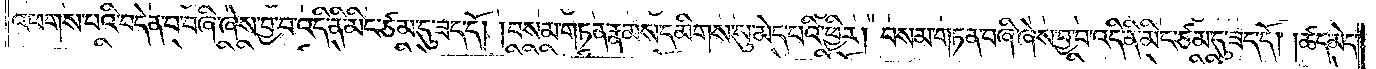འཕགས་པའི་བདེན་པ་བཞི་ཞེས་བྱ་བ་འདི་ནི་མིང་ཙམ་དུ་ཟད་དོ། །བསམ་གཏན་རྣམས་དམིགས་སུ་མེད་པའི་ཕྱིར། བསམ་གཏན་བཞི་ཞེས་བྱ་བ་འདི་ནི་མིང་ཙམ་དུ་ཟད་དོ། །ཚད་མེད་
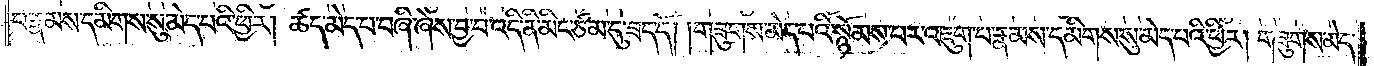པ་རྣམས་དམིགས་སུ་མེད་པའི་ཕྱིར། ཚད་མེད་པ་བཞི་ཞེས་བྱ་བ་འདི་ནི་མིང་ཙམ་དུ་ཟད་དོ། །གཟུགས་མེད་པའི་སྙོམས་པར་འཇུག་པ་རྣམས་དམིགས་སུ་མེད་པའི་ཕྱིར། གཟུགས་མེད་
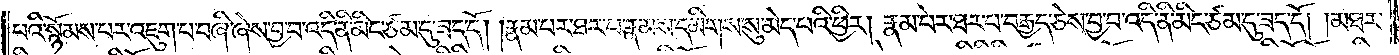པའི་སྙོམས་པར་འཇུག་པ་བཞི་ཞེས་བྱ་བ་འདི་ནི་མིང་ཙམ་དུ་ཟད་དོ། །རྣམ་པར་ཐར་པ་རྣམས་དམིགས་སུ་མེད་པའི་ཕྱིར། རྣམ་པར་ཐར་པ་བརྒྱད་ཅེས་བྱ་བ་འདི་ནི་མིང་ཙམ་དུ་ཟད་དོ། །མཐར་
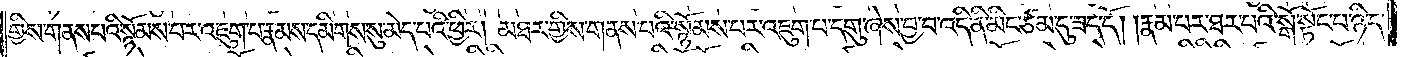གྱིས་གནས་པའི་སྙོམས་པར་འཇུག་པ་རྣམས་དམིགས་སུ་མེད་པའི་ཕྱིར། མཐར་གྱིས་གནས་པའི་སྙོམས་པར་འཇུག་པ་དགུ་ཞེས་བྱ་བ་འདི་ནི་མིང་ཙམ་དུ་ཟད་དོ། །རྣམ་པར་ཐར་པའི་སྒོ་སྟོང་པ་ཉིད་
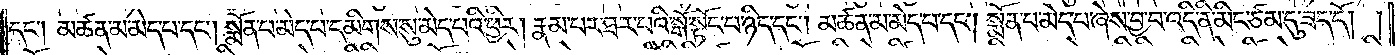དང༌། མཚན་མ་མེད་པ་དང༌། སྨོན་པ་མེད་པ་དམིགས་སུ་མེད་པའི་ཕྱིར། རྣམ་པར་ཐར་པའི་སྒོ་སྟོང་པ་ཉིད་དང༌། མཚན་མ་མེད་པ་དང༌། སྨོན་པ་མེད་པ་ཞེས་བྱ་བ་འདི་ནི་མིང་ཙམ་དུ་ཟད་དོ། །
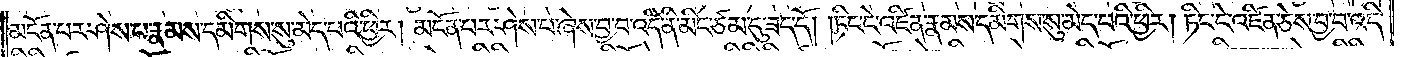མངོན་པར་ཤེས་པ་རྣམས་དམིགས་སུ་མེད་པའི་ཕྱིར། མངོན་པར་ཤེས་པ་ཞེས་བྱ་པ་འདི་ནི་མིང་ཙམ་དུ་ཟད་དོ། །ཏིང་ངེ་འཛིན་རྣམས་དམིགས་སུ་མེད་པའི་ཕྱིར། ཏིང་ངེ་འཛིན་ཅེས་བྱ་བ་འདི་
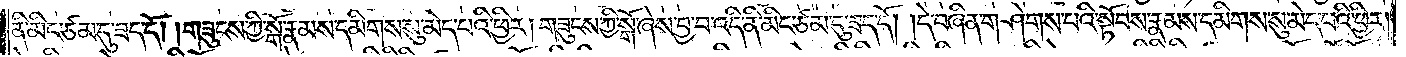ནི་མིང་ཙམ་དུ་ཟད་དོ། །གཟུངས་ཀྱི་སྒོ་རྣམས་དམིགས་སུ་མེད་པའི་ཕྱིར། གཟུངས་ཀྱི་སྒོ་ཞེས་བྱ་བ་འདི་ནི་མིང་ཙམ་དུ་ཟད་དོ། །དེ་བཞིན་གཤེགས་པའི་སྟོབས་རྣམས་དམིགས་སུ་མེད་པའི་ཕྱིར།
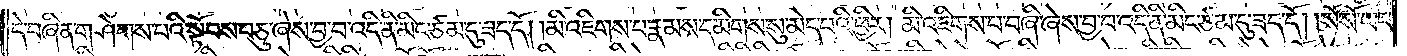དེ་བཞིན་གཤེགས་པའི་སྟོབས་བཅུ་ཞེས་བྱ་བ་འདི་ནི་མིང་ཙམ་དུ་ཟད་དོ། །མི་འཇིགས་པ་རྣམས་དམིགས་སུ་མེད་པའི་ཕྱིར། མི་འཇིགས་པ་བཞི་ཞེས་བྱ་བ་འདི་ནི་མིང་ཙམ་དུ་ཟད་དོ། །སོ་སོ་ཡང་
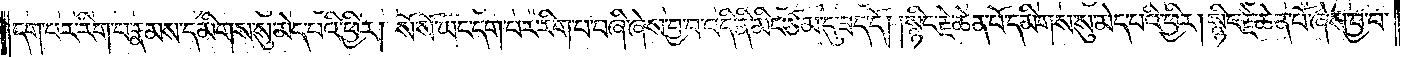དག་པར་རིག་པ་རྣམས་དམིགས་སུ་མེད་པའི་ཕྱིར། སོ་སོ་ཡང་དག་པར་རིག་པ་བཞི་ཞེས་བྱ་བ་འདི་ནི་མིང་ཙམ་དུ་ཟད་དོ། །སྙིང་རྗེ་ཆེན་པོ་དམིགས་སུ་མེད་པའི་ཕྱིར། སྙིང་རྗེ་ཆེན་པོ་ཞེས་བྱ་བ་
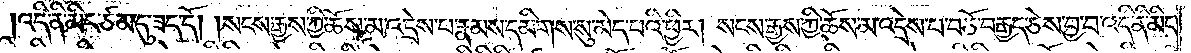འདི་ནི་མིང་ཙམ་དུ་ཟད་དོ། །སངས་རྒྱས་ཀྱི་ཆོས་མ་འདྲེས་པ་རྣམས་དམིགས་སུ་མེད་པའི་ཕྱིར། སངས་རྒྱས་ཀྱི་ཆོས་མ་འདྲེས་པ་བཅོ་བརྒྱད་ཅེས་བྱ་བ་འདི་ནི་མིང་
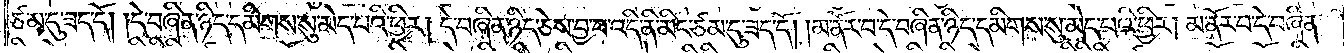ཙམ་དུ་ཟད་དོ། །དེ་བཞིན་ཉིད་དམིགས་སུ་མེད་པའི་ཕྱིར། དེ་བཞིན་ཉིད་ཅེས་བྱ་བ་འདི་ནི་མིང་ཙམ་དུ་ཟད་དོ། །མ་ནོར་བ་དེ་བཞིན་ཉིད་དམིགས་སུ་མེད་པའི་ཕྱིར། མ་ནོར་བ་དེ་བཞིན་
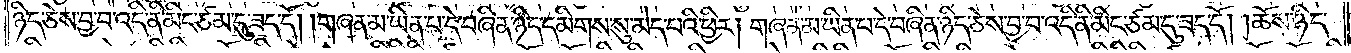ཉིད་ཅེས་བྱ་བ་འདི་ནི་མིང་ཙམ་དུ་ཟད་དོ། །གཞན་མ་ཡིན་པ་དེ་བཞིན་ཉིད་དམིགས་སུ་མེད་པའི་ཕྱིར། གཞན་མ་ཡིན་པ་དེ་བཞིན་ཉིད་ཅེས་བྱ་བ་འདི་ནི་མིང་ཙམ་དུ་ཟད་དོ། །ཆོས་ཉིད་
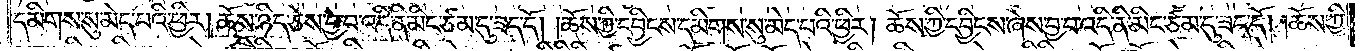དམིགས་སུ་མེད་པའི་ཕྱིར། ཆོས་ཉིད་ཅེས་བྱ་བ་འདི་ནི་མིང་ཙམ་དུ་ཟད་དོ། །ཆོས་ཀྱི་དབྱིངས་དམིགས་སུ་མེད་པའི་ཕྱིར། ཆོས་ཀྱི་དབྱིངས་ཞེས་བྱ་བ་འདི་ནི་མིང་ཙམ་དུ་ཟད་དོ། །ཆོས་ཀྱི་
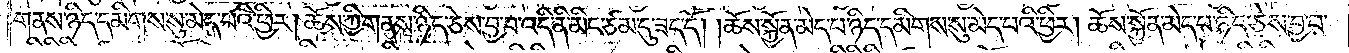གནས་ཉིད་དམིགས་སུ་མེད་པའི་ཕྱིར། ཆོས་ཀྱི་གནས་ཉིད་ཅེས་བྱ་བ་འདི་ནི་མིང་ཙམ་དུ་ཟད་དོ། །ཆོས་སྐྱོན་མེད་པ་ཉིད་དམིགས་སུ་མེད་པའི་ཕྱིར། ཆོས་སྐྱོན་མེད་པ་ཉིད་ཞེས་བྱ་བ་
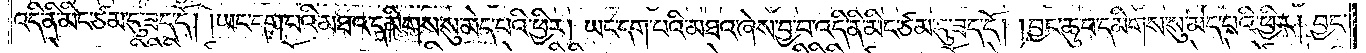འདི་ནི་མིང་ཙམ་དུ་ཟད་དོ། །ཡང་དག་པའི་མཐའ་དམིགས་སུ་མེད་པའི་ཕྱིར། ཡང་དག་པའི་མཐའ་ཞེས་བྱ་བ་འདི་ནི་མིང་ཙམ་དུ་ཟད་དོ། །བྱང་ཆུབ་དམིགས་སུ་མེད་པའི་ཕྱིར། བྱང་
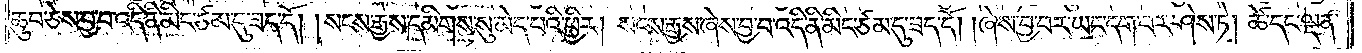ཆུབ་ཅེས་བྱ་བ་འདི་ནི་མིང་ཙམ་དུ་ཟད་དོ། །སངས་རྒྱས་དམིགས་སུ་མེད་པའི་ཕྱིར། སངས་རྒྱས་ཞེས་བྱ་བ་འདི་ནི་མིང་ཙམ་དུ་ཟད་དོ། ཞེས་བྱ་བར་ཡང་དག་པར་ཤེས་ཏེ། ཚེ་དང་ལྡན་
